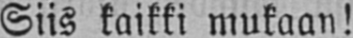Siis kaikki mukaan! Weljeydellä.
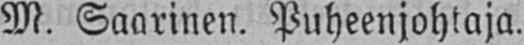M. Saarinen. Puheenjohtaja.
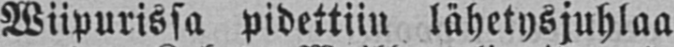Wiipurissa pidettiin lähetysjuhlaa
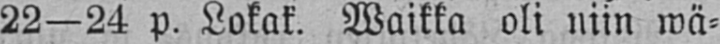22—24 p. Lokak. Waikka oli niin wä-
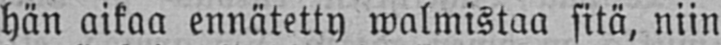hän aikaa ennätetty walmistaa sitä, niin
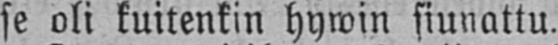se oli kuitenkin hywin siunattu.
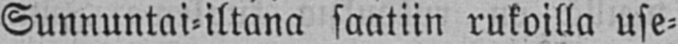Sunnuntai-iltana saatiin rukoilla use-
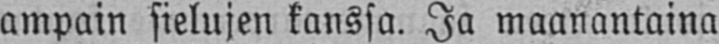ampain sielujen kanssa. Ja maanantaina
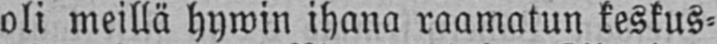oli meillä hywin ihana raamatun keskus-
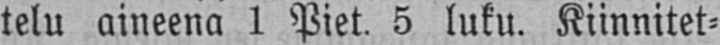telu aineena 1 Piet. 5 luku. Kiinnitet-
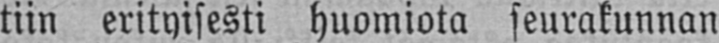tiin erityisesti huomiota seurakunnan
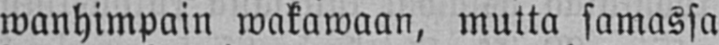wanhimpain wakawaan, mutta samassa
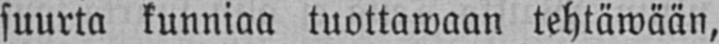suurta kunniaa tuottawaan tehtäwään,
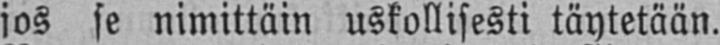jos se nimittäin uskollisesti täytetään.
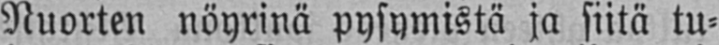Nuorten nöyrinä pysymistä ja siitä tu-
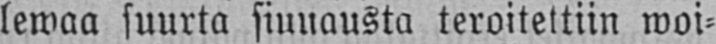lewaa suurta siunausta teroitettiin woi-
